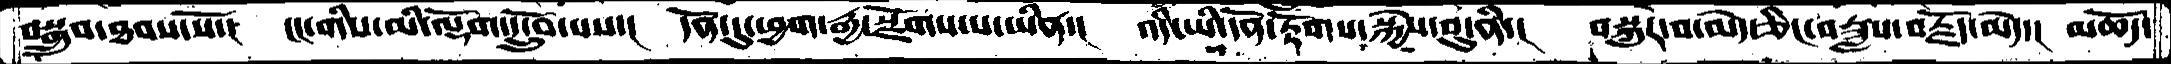བསྒྲུབ་ཐབས་སོ་།  ངང་གིས་མི་ལྡོག་དངྲོུབ་པས་།  དོན་དུ་ཕྱག་རྒྱ་སྫོགས་པ་ཡིན་།  འདི་ཡི་དོན་རྟོགས་སྐེས་བུ་ནི་།  བསྐུར་བ་མེད་ཅིང་བཟླས་བརྗོད་མེད་།  མཆོད་
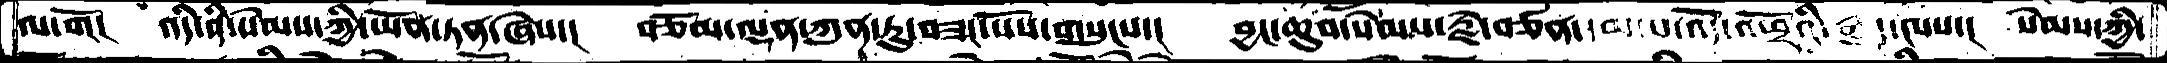ལ་གོ།  འདི་ནི་སེམས་ཀྱི་ཡོན་ཏན་ཞེས་།  བཅོམ་ལྡན་ཀུན་ཏུ་བཟང་པོས་གསུངས་།  བྱང་ཆུབ་སེམས་རྗེ་བཙན་དམ་པ་འོད་འཕྲོའི་རྒྱུད་ལས་།  སེམས་ཀྱི་
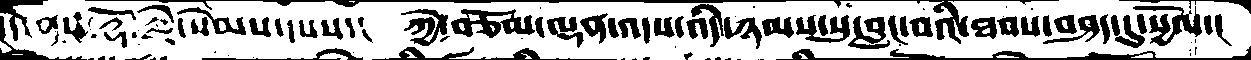།དེ་ནས་རྡོ་རྗེ་སེམས་དཔས་།  ཀྱེ་བཅོམ་ལྡན་འདས་འདི་ཉམས་སུ་བླང་བའི་ཐབས་བཤད་དུ་སྱོལ་།
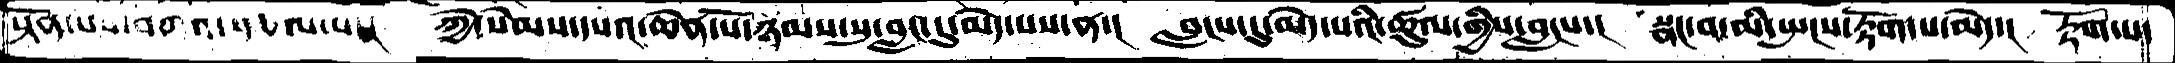སྟོན་པས་བཀའ་སྩལ་པ་།  ཀྱེ་སེམས་དཔའ་ཆེན་པོ་ཉམས་སུ་བླང་དུ་མེད་པས་ན་།  བླངས་དུ་མེད་པའི་ཚུལ་གྱིས་བླངས་།  སྣང་བ་མི་སྤངས་རྟོག་པ་མེད་། རྟོག་པ་
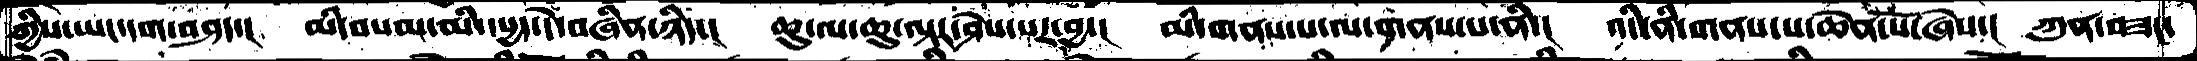གྱིས་ཡང་དག་བཤད་།  མི་བསལ་མི་དཔྱད་དེ་བཞིན་ཉིད་།  ཆུ་ལ་ཆུ་ལྟར་ཤེས་པར་བྱ་།  མི་གནས་པ་ལ་གནས་པ་ནི་།  འདི་ནི་གནས་པ་ཆེན་པོ་ཞེས་།  ཀུན་བཟང་
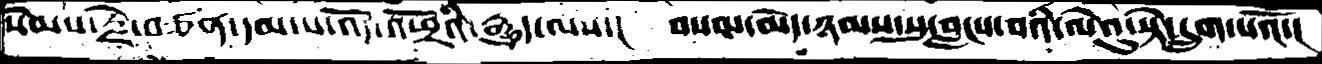སེམས་རྗེ་བཙན་དམ་པ་འོད་འཕྲོའི་རྒྱུད་ལས་།  བསམ་མེད་ཉམས་སུ་བླངས་བའི་ལེའུ་སྟེ་དྲུག་པའོ་།
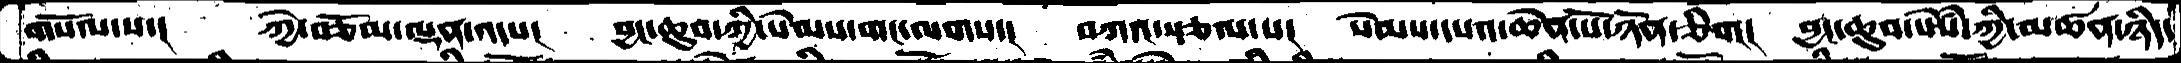གསོལ་པ་།  ཀྱེ་བཅོམ་ལྡན་འདས་།  བྱང་ཆུབ་ཀྱི་སེམས་གང་ལགས་།  བཀའ་སྩལ་པ་།  སེམས་དཔའ་ཆེན་པོ་ཉོན་ཅིག།  བྱང་ཆུབ་སེཾས་ཀྱི་མཚན་ཉིད་
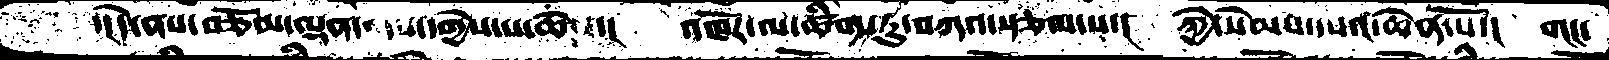་།དེ་ནས་བཅོམ་ལྡན་འདས་དགྱེས་པ་ཆེད་།  འཁོར་ལ་ཚིག་ཏུ་བཀའ་སྩལ་པ་།  ཀྱེ་སེམས་དཔའ་ཆེན་པོ་།  གང་
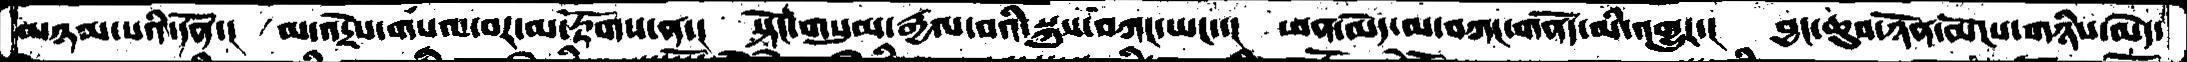མཉམ་པའི་དོན་།  མ་འདྲེས་གསལ་བར་མ་རྟོགས་ན་།  སྟོང་གསུམ་རྒྱལ་བའི་སྐུས་བཀང་ཡང་་།  ཕན་མེད་མ་བཀང་གནོད་མི་འགྱུར་།  བྱང་ཆུབ་ཉོན་མོངས་གཉིས་མེད་
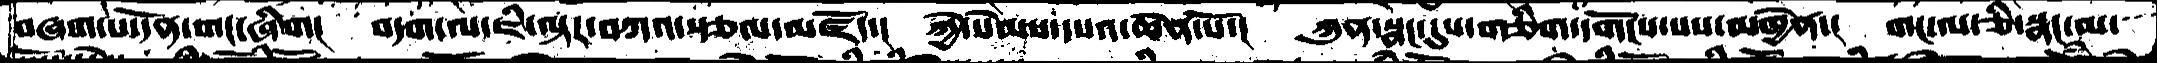བཞག་པ་དོན་གང་ཞིག།  བདག་ལ་ཇི་ལྟར་བཀའ་སྩལ་མཛོད་།  ཀྱེ་སེམས་དཔའ་ཆེན་པོ་།  ཀུན་སྣང་དུས་གཅིག་དགོངས་པས་མཁྱེན་།  གང་ལ་ཅི་སྣང་མ་
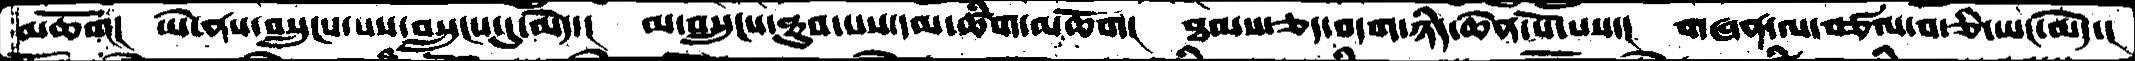མཆོག།  ཡེ་ནས་བསྲུངས་པས་བསྲུངས་དུ་མེད་།  མ་བསྲུངས་ཐུབ་པས་དམ་ཚིག་མཆོག།  ཐམས་ཅད་བདག་ཉིད་ཆེན་པོ་པས་།  གཞན་ལ་བཙལ་བ་ཅི་ཡང་མེད་།
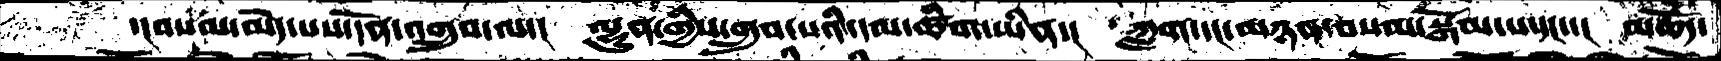་།བསམ་མེད་པས་དོན་འགྲུབ་ལ་།  ལྷུན་གྱིས་གྲུབ་པའི་དམ་ཚིག་ཡིན་།  ཀླག་དང་མཉན་བསམ་སྒོམ་པ་དང་་།  མཆོད་
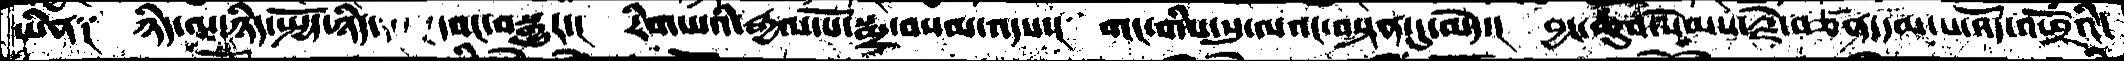ཡིན༑  ཉིད་ལ་ཉིད་སྤྱོད་ཉིད་དབང་བསྒྱུར་།  རིག་པའི་རྒྱལ་པོ་སྨྲ་བསམ་འདས་།  གང་གི་སུ་ལའང་བསྟན་དུ་མེད་།  བྱང་ཆུབ་སེམས་རྗེ་བཙན་དམ་པ་འོད་འཕྲོའི་
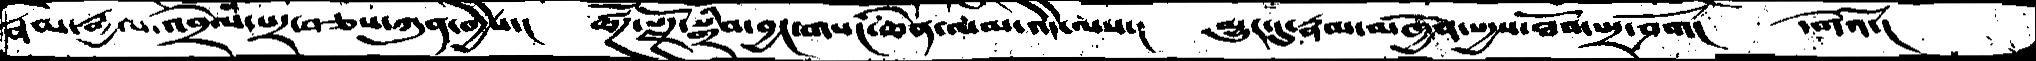རྣམ་རྒྱལ་འབྲེལ་པར་བཅས་ཀུན་གྱིས་།  ཚོཌ་སྫོཌ་སྒྲིབ་བྱང་གསང་ཆེན་ལམ་འདི་ལས་།  མྱུར་དུ་རྣམ་མཁྱེན་སདྱས་ཐོབ་པར་ཤོག།  དགེའོ་།
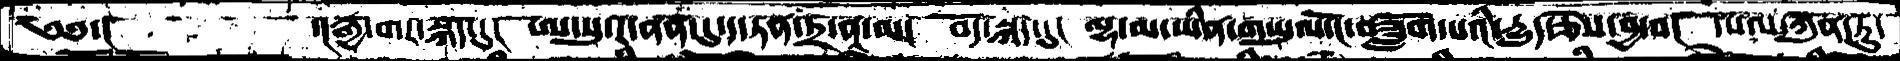༄༅་།    ་།རྒྱ་གར་སྐད་དུ།  ཨ་སུ་ར་ནན་དུ་ད་ཏན་ཏྲ་ནཱ་མ།  བོད་སྐད་དུ།  ལྷ་མ་ཡིན་གཡུལ་ངོ་བཟློག་པའི་དྱུད་ཅེས་བྱ་བ་།  དཔལ་ཀུན་ཏུ་
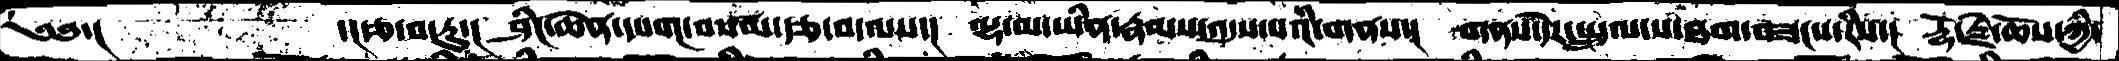༄༅་།     ་།རྩ་བ་རུ་།  ཤིང་ཆེན་དཔག་བསམ་རྩ་བ་ལས་།  ལྷ་མ་ཡིན་རྣམས་འདུས་པའི་གནས་།  གནས་དེར་སྤྲུལ་པ་ཐག་བཟངས་རིས་།  རྡོ་རྗེ་ཆོས་ཀྱི་
